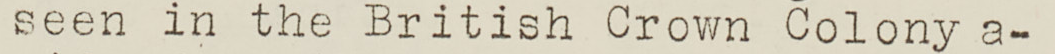seen in the British Crown Colony a-
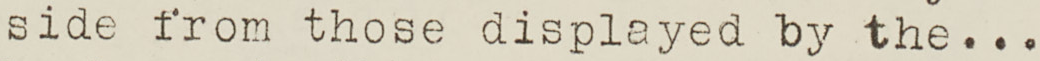side from those displayed by the...
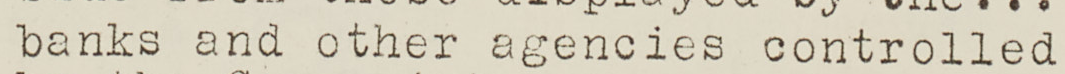banks and other agencies controlled
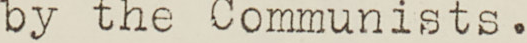by the Communists.
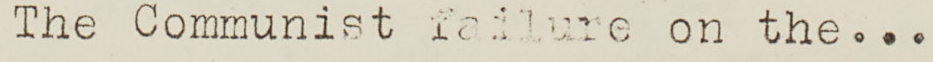The Communist failure on the
